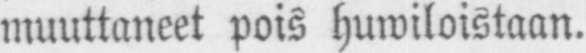muuttaneet pois huwiloistaan.
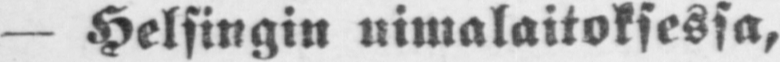— Helsingin uimalaitoksessa,
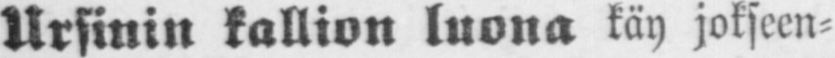Ursinin kallion luona käy jokseen-
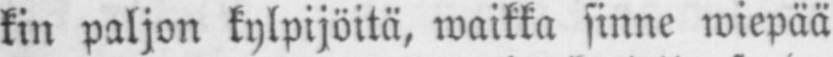kin paljon kylpijöitä, waikka sinne wiepää
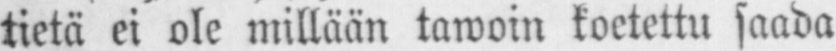tietä ei ole millään tawoin koetettu saada
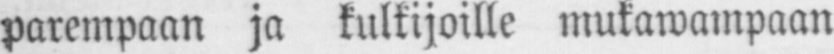parempaan ja kulkijoille mukawampaan
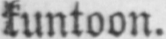kuntoon.
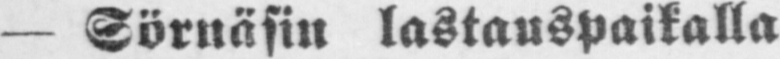— Sörnäsin lastauspaikalla
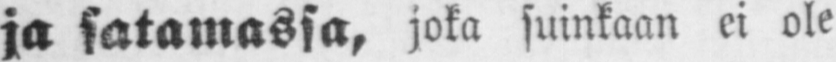ja satamassa, joka suinkaan ei ole
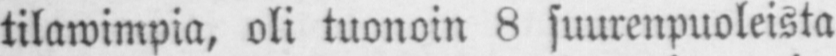tilawimpia, oli tuonoin 8 suurenpuoleista
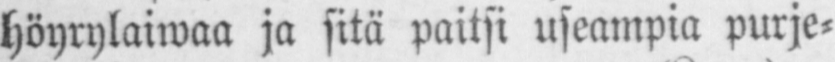höyrylaiwaa ja sitä paitsi useampia purje-
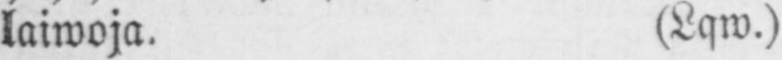laiwoja. (Lqw.)
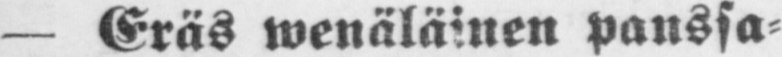— Eräs wenäläinen panssa-
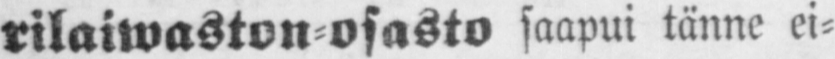rilaiwaston- osasto saapui tänne ei-
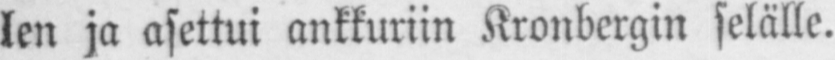len ja asettui ankkuriin Kronbergin selälle.
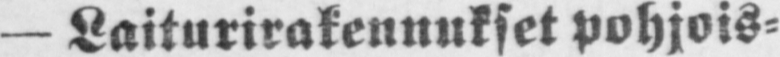— Laiturirakennukset pohjois-
